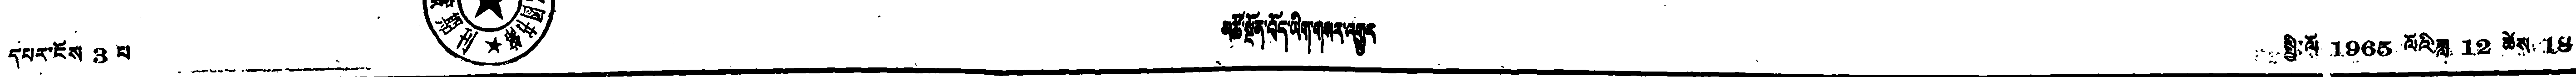དཔར་ངོས་ 3 པ མཚོ་སྔོན་བོད་ཡིག་གསར་གྱུར སྤྱི་ལོ་ 1965 ལོའི་ཟླ 12 ཚེས 18
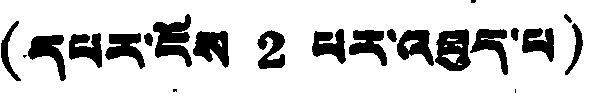(དཔར་ངོས 2 པར་འཐུད་པ)
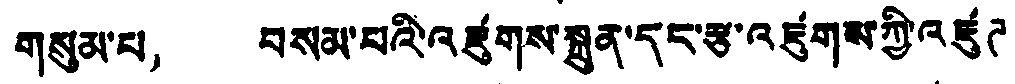གསུམ་པ， བསམ་པའི་འཛུགས་སྐྲུན་དང་རྩ་འཛུགས་ཀྱི་འཛུཊ
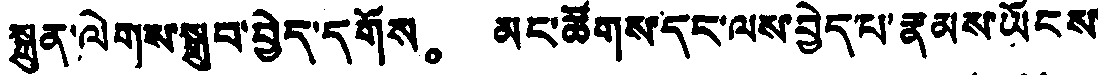སྐྲུན་ལེགས་སྒྲུབ་བྱེད་དགོས。 མང་ཚོགས་དང་ལས་བྱེད་པ་རྣམས་ཡོངས་
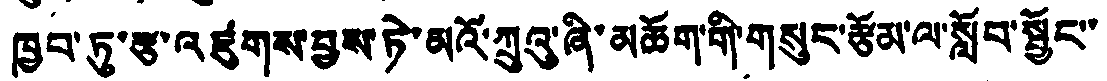ཁྱབ་ཏུ་རྩ་འཛུགས་བྱས་ཏེ་མའོ་ཀྲུའུ་ཞི་མཆོག་གི་གསུང་རྩོམ་ལ་སློབ་སྦྱོང་་
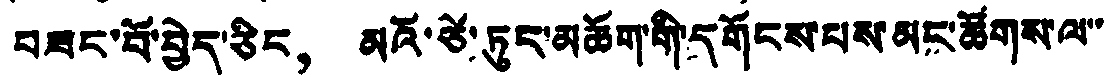བཟང་པོ་བྱེད་ཅིང， མའོ་ཙེ་ཏུང་མཆོག་གི་དགོངས་པས་མང་ཚོགས་ལ་་
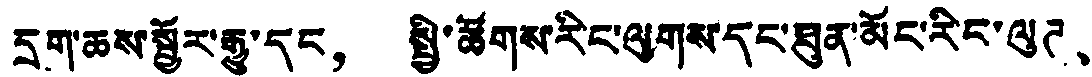དྲག་ཆས་སྦྱོར་རྒྱུ་དང， སྤྱི་ཚོགས་རིང་ལུགས་དང་ཐུན་མོང་རིང་ལུཊ、
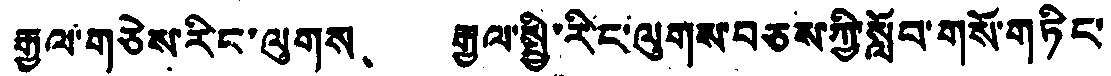རྒྱལ་གཅེས་རིང་ལུགས། རྒྱལ་སྤྱི་རིང་ལུགས་བཅས་ཀྱི་སློབ་གསོ་གཏིང་
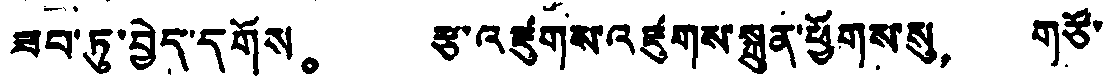ཟབ་ཏུ་བྱེད་དགོས。 རྩ་འཛུགས་འཛུགས་སྐྲུན་ཕྱོགས་སུ， གཙོ་
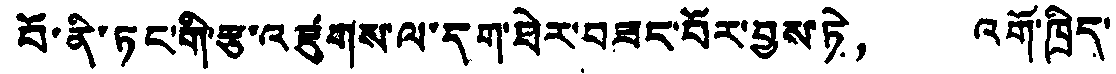བོ་ནི་ཏང་གི་རྩ་འཛུགས་ལ་དག་ཐེར་བཟང་པོར་བྱས་ཏེ， འགོ་ཁྲིད་
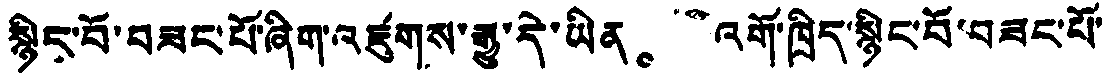སྙིང་པོ་བཟང་པོ་ཞིག་འཛུགས་རྒྱུ་དེ་ཡིན。 འགོ་ཁྲིད་སྙིང་པོ་བཟང་པོ་
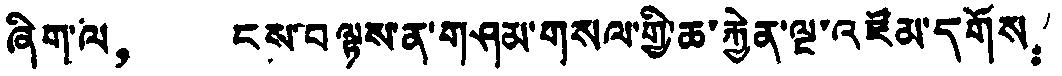ཞིག་ལ， ངས་བལྟས་ན་གཤམ་གསལ་གྱི་ཆ་རྐྱེན་ལྔ་འཛོམ་དགོས：
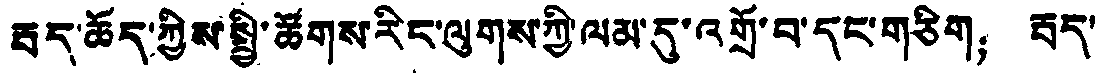རྦད་ཆོད་ཀྱིས་སྤྱི་ཚོགས་རིང་ལུགས་ཀྱི་ལམ་དུ་འགྲོ་བ་དང་གཅིག； རྦད་
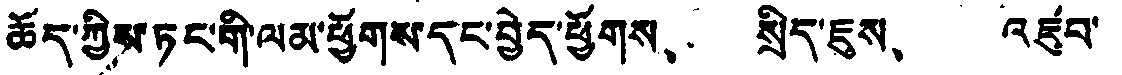ཆོད་ཀྱིས་ཏང་གི་ལམ་ཕྱོགས་དང་བྱེད་ཕྱོགས、 སྲིད་ཇུས、 འཛུབ་
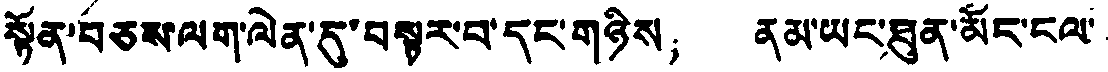སྟོན་བཅས་ལག་ལེན་དུ་བསྟར་བ་དང་གཉིས； ནམ་ཡང་ཐུན་མོང་ངལ་
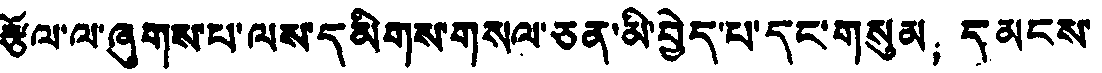རྩོལ་ལ་ཞུགས་པ་ལས་དམིགས་གསལ་ཅན་མི་བྱེད་པ་དང་གསུམ； དམངས་
